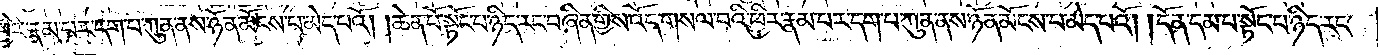ཕྱིར་རྣམ་པར་དག་པ་ཀུན་ནས་ཉོན་མོངས་པ་མེད་པའོ། །ཆེན་པོ་སྟོང་པ་ཉིད་རང་བཞིན་གྱིས་འོད་གསལ་བའི་ཕྱིར་རྣམ་པར་དག་པ་ཀུན་ནས་ཉོན་མོངས་པ་མེད་པའོ། །དོན་དམ་པ་སྟོང་པ་ཉིད་རང་
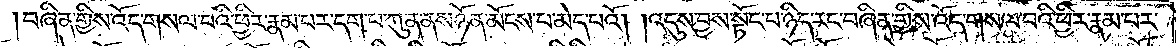བཞིན་གྱིས་འོད་གསལ་བའི་ཕྱིར་རྣམ་པར་དག་པ་ཀུན་ནས་ཉོན་མོངས་པ་མེད་པའོ། །འདུས་བྱས་སྟོང་པ་ཉིད་རང་བཞིན་གྱིས་འོད་གསལ་བའི་ཕྱིར་རྣམ་པར་
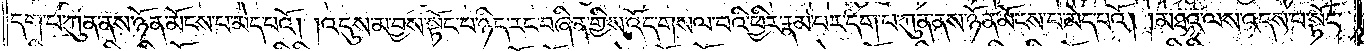དག་པ་ཀུན་ནས་ཉོན་མོངས་པ་མེད་པའོ། །འདུས་མ་བྱས་སྟོང་པ་ཉིད་རང་བཞིན་གྱིས་འོད་གསལ་བའི་ཕྱིར་རྣམ་པར་དག་པ་ཀུན་ནས་ཉོན་མོངས་པ་མེད་པའོ། །མཐའ་ལས་འདས་པ་སྟོང་
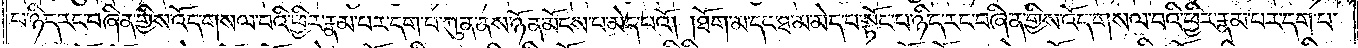པ་ཉིད་རང་བཞིན་གྱིས་འོད་གསལ་བའི་ཕྱིར་རྣམ་པར་དག་པ་ཀུན་ནས་ཉོན་མོངས་པ་མེད་པའོ། །ཐོག་མ་དང་ཐ་མ་མེད་པ་སྟོང་པ་ཉིད་རང་བཞིན་གྱིས་འོད་གསལ་བའི་ཕྱིར་རྣམ་པར་དག་པ་
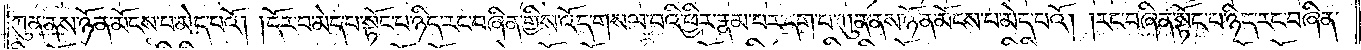ཀུན་ནས་ཉོན་མོངས་པ་མེད་པའོ། །དོར་བ་མེད་པ་སྟོང་པ་ཉིད་རང་བཞིན་གྱིས་འོད་གསལ་བའི་ཕྱིར་རྣམ་པར་དག་པ་ཀུན་ནས་ཉོན་མོངས་པ་མེད་པའོ། །རང་བཞིན་སྟོང་པ་ཉིད་རང་བཞིན་
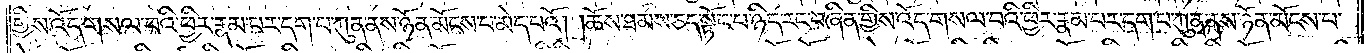གྱིས་འོད་གསལ་བའི་ཕྱིར་རྣམ་པར་དག་པ་ཀུན་ནས་ཉོན་མོངས་པ་མེད་པའོ། །ཆོས་ཐམས་ཅད་སྟོང་པ་ཉིད་རང་བཞིན་གྱིས་འོད་གསལ་བའི་ཕྱིར་རྣམ་པར་དག་པ་ཀུན་ནས་ཉོན་མོངས་པ་
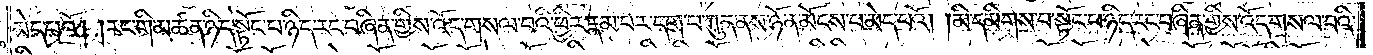མེད་པའོ། །རང་གི་མཚན་ཉིད་སྟོང་པ་ཉིད་རང་བཞིན་གྱིས་འོད་གསལ་བའི་ཕྱིར་རྣམ་པར་དག་པ་ཀུན་ནས་ཉོན་མོངས་པ་མེད་པའོ། །མི་དམིགས་པ་སྟོང་པ་ཉིད་རང་བཞིན་གྱིས་འོད་གསལ་བའི་
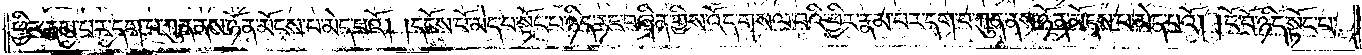ཕྱིར་རྣམ་པར་དག་པ་ཀུན་ནས་ཉོན་མོངས་པ་མེད་པའོ། །དངོས་པོ་མེད་པ་སྟོང་པ་ཉིད་རང་བཞིན་གྱིས་འོད་གསལ་བའི་ཕྱིར་རྣམ་པར་དག་པ་ཀུན་ནས་ཉོན་མོངས་པ་མེད་པའོ། །ངོ་བོ་ཉིད་སྟོང་པ་
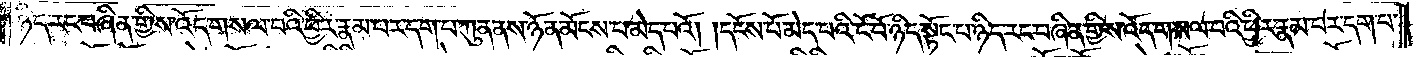ཉིད་རང་བཞིན་གྱིས་འོད་གསལ་བའི་ཕྱིར་རྣམ་པར་དག་པ་ཀུན་ནས་ཉོན་མོངས་པ་མེད་པའོ། །དངོས་པོ་མེད་པའི་ངོ་བོ་ཉིད་སྟོང་པ་ཉིད་རང་བཞིན་གྱིས་འོད་གསལ་བའི་ཕྱིར་རྣམ་པར་དག་པ་
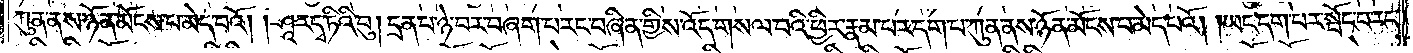ཀུན་ནས་ཉོན་མོངས་པ་མེད་པའོ། །ཤཱ་ར་དྭ་ཏིའི་བུ། དྲན་པ་ཉེ་བར་བཞག་པ་རང་བཞིན་གྱིས་འོད་གསལ་བའི་ཕྱིར་རྣམ་པར་དག་པ་ཀུན་ནས་ཉོན་མོངས་པ་མེད་པའོ། །ཡང་དག་པར་སྤོང་བ་རང་
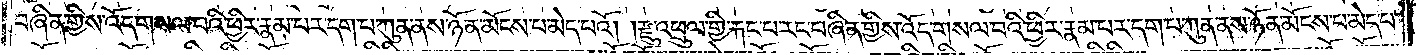བཞིན་གྱིས་འོད་གསལ་བའི་ཕྱིར་རྣམ་པར་དག་པ་ཀུན་ནས་ཉོན་མོངས་པ་མེད་པའོ། །རྫུ་འཕྲུལ་གྱི་རྐང་པ་རང་བཞིན་གྱིས་འོད་གསལ་བའི་ཕྱིར་རྣམ་པར་དག་པ་ཀུན་ནས་ཉོན་མོངས་པ་མེད་པ་
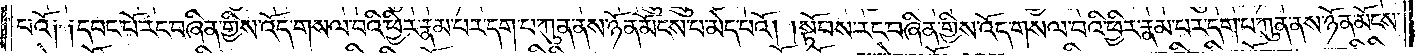པའོ༑ ༑དབང་པོ་རང་བཞིན་གྱིས་འོད་གསལ་པའི་ཕྱིར་རྣམ་པར་དག་པ་ཀུན་ནས་ཉོན་མོངས་པ་མེད་པའོ། །སྟོབས་རང་བཞིན་གྱིས་འོད་གསལ་བའི་ཕྱིར་རྣམ་པར་དག་པ་ཀུན་ནས་ཉོན་མོངས་
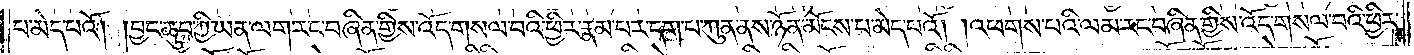པ་མེད་པའོ། །བྱང་ཆུབ་ཀྱི་ཡན་ལག་རང་བཞིན་གྱིས་འོད་གསལ་བའི་ཕྱིར་རྣམ་པར་དག་པ་ཀུན་ནས་ཉོན་མོངས་པ་མེད་པའོ། །འཕགས་པའི་ལམ་རང་བཞིན་གྱིས་འོད་གསལ་བའི་ཕྱིར་
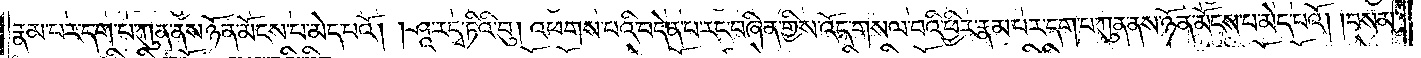རྣམ་པར་དག་པ་ཀུན་ནས་ཉོན་མོངས་པ་མེད་པའོ། །ཤཱ་ར་དྭ་ཏིའི་བུ། འཕགས་པའི་བདེན་པ་རང་བཞིན་གྱིས་འོད་གསལ་བའི་ཕྱིར་རྣམ་པར་དག་པ་ཀུན་ནས་ཉོན་མོངས་པ་མེད་པའོ། །བསམ་
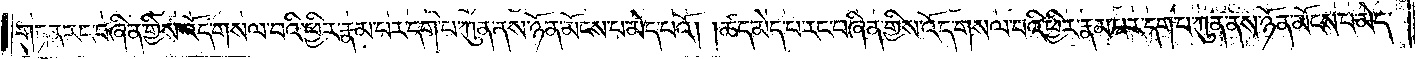གཏན་རང་བཞིན་གྱིས་འོད་གསལ་བའི་ཕྱིར་རྣམ་པར་དག་པ་ཀུན་ནས་ཉོན་མོངས་པ་མེད་པའོ། །ཚད་མེད་པ་རང་བཞིན་གྱིས་འོད་གསལ་བའི་ཕྱིར་རྣམ་པར་དག་པ་ཀུན་ནས་ཉོན་མོངས་པ་མེད་
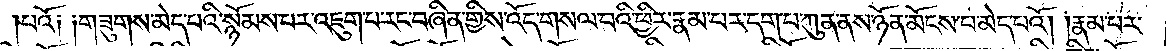པའོ༑ ༑གཟུགས་མེད་པའི་སྙོམས་པར་འཇུག་པ་རང་བཞིན་གྱིས་འོད་གསལ་བའི་ཕྱིར་རྣམ་པར་དག་པ་ཀུན་ནས་ཉོན་མོངས་པ་མེད་པའོ། །རྣམ་པར་
